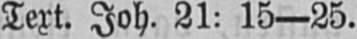Text. Joh. 21: 15—25.
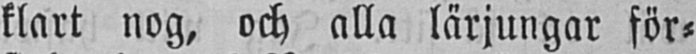klart nog, och alla lärjungar för-
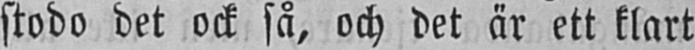stodo det ock så, och det är ett klart
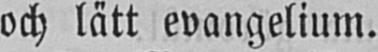och lätt evangelium.
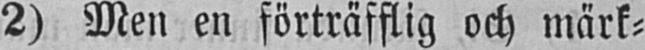2) Men en förträfflig och märk-
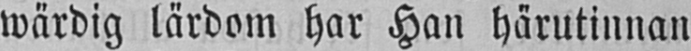wärdig lärdom har Han härutinnan
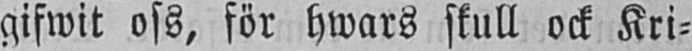gifwit oss, för hwars skull ock Kri-
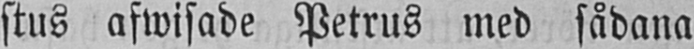stus afwisade Petrus med sådana
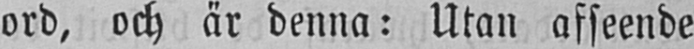ord, och är denna: Utan afseende
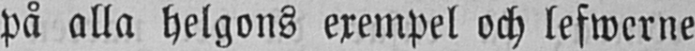på alla helgons exempel och lefwerne
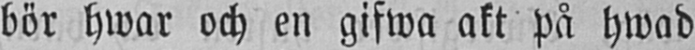bör hwar och en gifwa akt på hwad
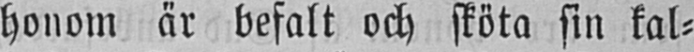honom är befalt och sköta sin kal-
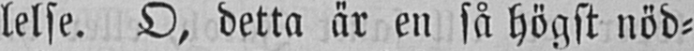lelse. O, detta är en så högst nöd-
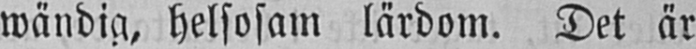wändig, helsosam lärdom. Det är
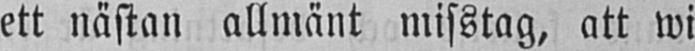ett nästan allmänt misstag, att wi
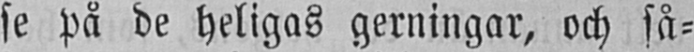se på de heligas gerningar, och så-
